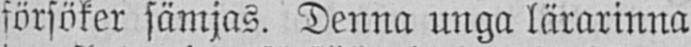försöker sämjas. Denna unga lärarinna
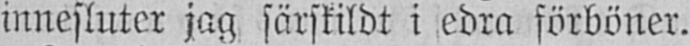innesluter jag särskildt i edra förböner.
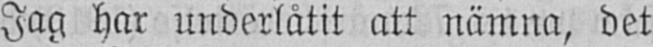Jag har underlåtit att nämna, det
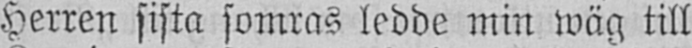Herren sista somras ledde min wäg till
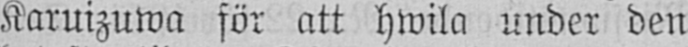Karuizuwa för att hwila under den
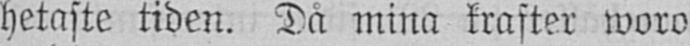hetaste tiden. Då mina krafter woro
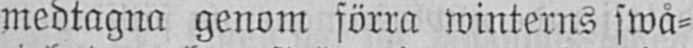medtagna genom förra winterns swå-
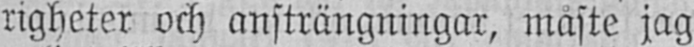righeter och ansträngningar, måste jag
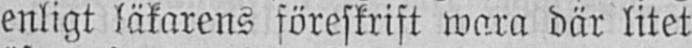enligt läkarens föreskrift wara där litet
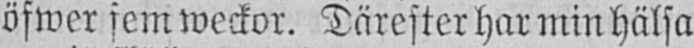öfwer fem weckor. Därefter har min hälsa
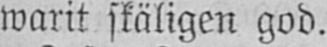warit skäligen god.
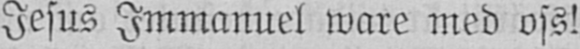Jesus Immanuel ware med oss!
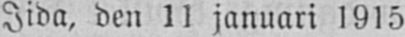Iida, den 11 januari 1915
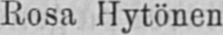Rosa Hytönen
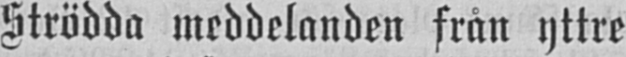Strödda meddelanden från yttre
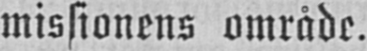missionens område.
